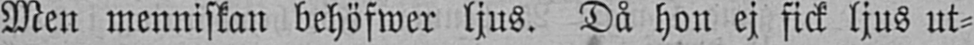Men menniskan behöfwer ljus. Då hon ej fick ljus ut-
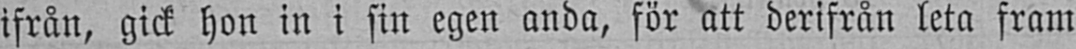ifrån, gick hon in i sin egen anda, för att derifrån leta fram
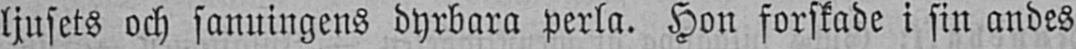ljusets och sanningens dyrbara perla. Hon forskade i sin andes
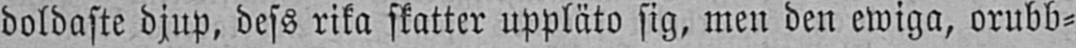doldaste djup, dess rika skatter uppläto sig, men den ewiga, orubb-
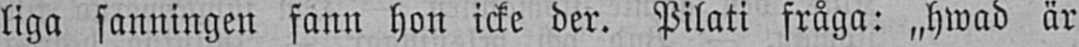liga samlingen fann hon icke der. Pilati fråga: „hwad är
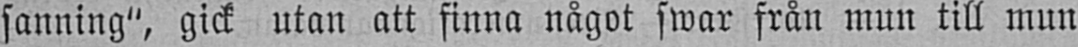sanning", gick utan att finna något swar från mun till mun
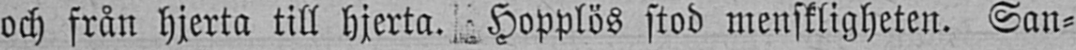och från hjerta till hjerta. Hopplös stod menskligheten. San-
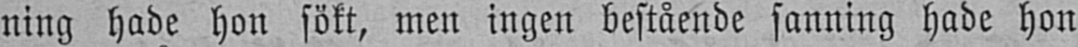ning hade hon sökt, men ingen bestående sanning hade hon
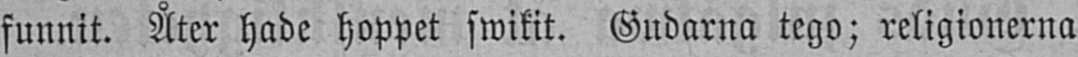funnit. Åter hade hoppet swikit. Gudarna tego; religionerna
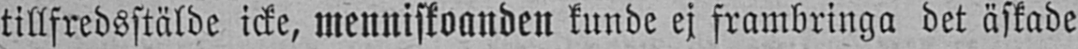tillfredsstälde icke, menniskoanden kunde ej frambringa det äskade
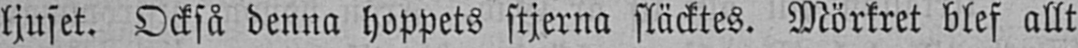ljuset. Också denna hoppets stjerna släcktes. Mörkret blef allt
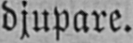djupare.
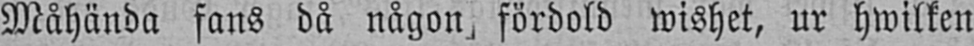Måhända fans då någon, fördold wishet, ur hwilken
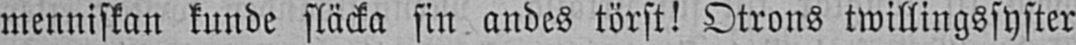menniskan kunde släcka sin andes törst! Otrons twillingssyster
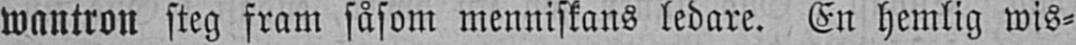wantron steg fram såsom menniskans ledare. En hemlig wis-
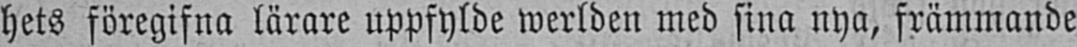hets föregifna lärare uppfylde werlden med sina nya, främmande
